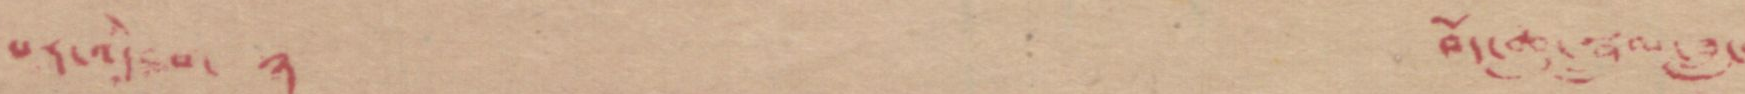པར་འདེབས་ ༣ བོད་ཆུ་སྦྲུལ་ཟླ་
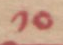༡༠
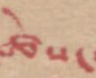ཚེས་
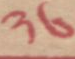༢༦
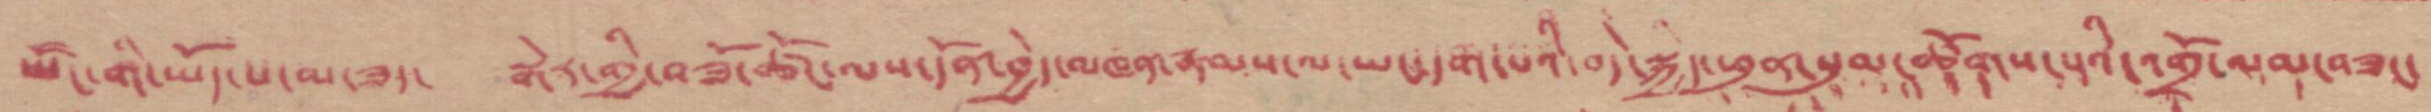ཡོང་གི་ཡོད་པ་མ་ཟད་ སྒེར་གྱི་བཟོ་ཚོང་ལས་དོན་བྱེད་མཁན་རྣམས་ལ་ཡང་དག་པའི་བདེ་སྐྱིད་ཕུན་སུམ་ཚོགས་པའི་འགྲོ་ལམ་བཟང་
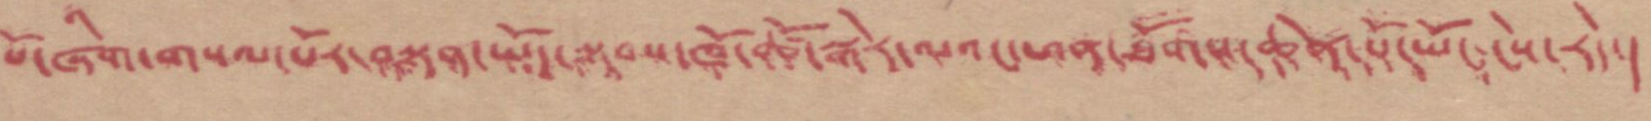པོ་ཞིག་གསལ་པོར་བསྟན་ཡོད་སྟབས་ཁོ་ཚོ་སྒེར་ལའང་ཕན་ཐོགས་ཆེན་པོ་ཡོང་ངེས་རེད།
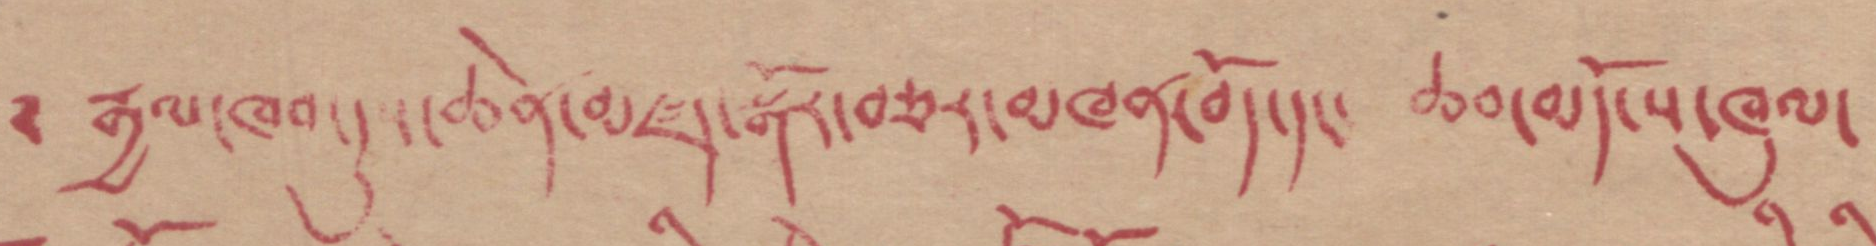༄ རྒྱལ་ཁབ་དུ་ཆེན་མཛད་སྒོར་བཅར་མཁན་བོད་དང་ ཆབ་མདོ་ས་ཁུལ་
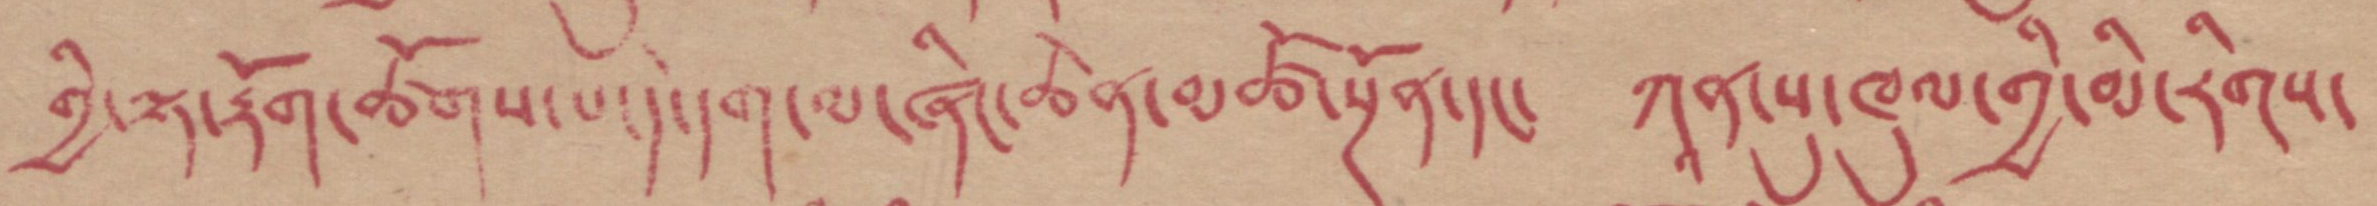གྱི་ལྟ་རྟོག་ཚོགས་པ་དེ་དག་ལ་ཞིང་ཆེན་མཚོ་སྔོན་དང་ ཀཱན་སུ་ཁུལ་གྱི་མི་རིགས་
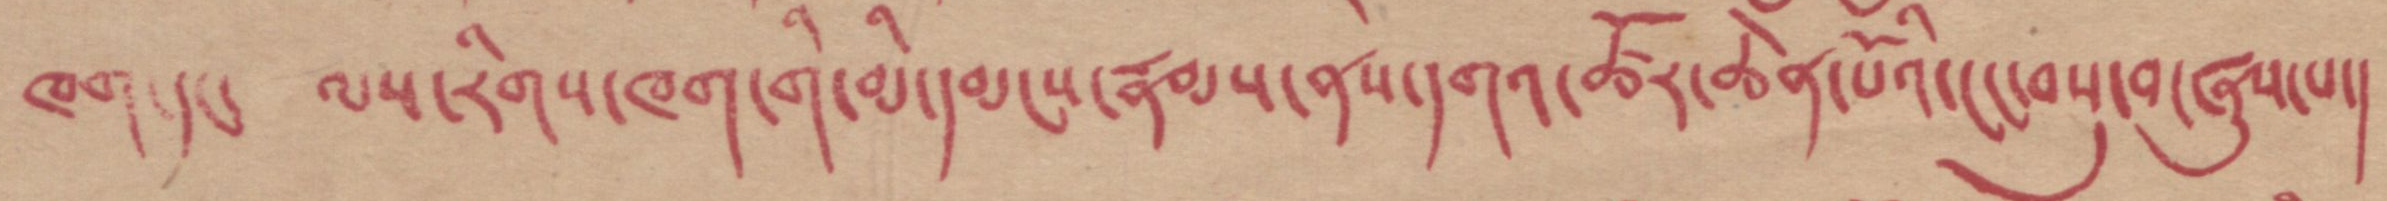ཁག་དང་ ལས་རིགས་ཁག་གི་མི་དམངས་རྣམས་ནས་དགའ་ཚོར་ཆེན་པོའི་ངང་བསུ་བ་ཞུས་པ།
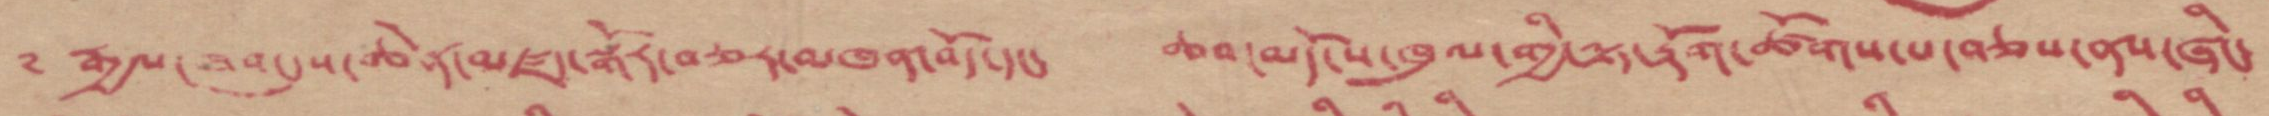༄ རྒྱལ་ཁབ་དུས་ཆེན་མཛད་སྒོར་བཅར་མཁན་བོད་དང་ ཆབ་མདོ་ས་ཁུལ་གྱི་ལྟ་རྟོག་ཚོགས་པ་བཅས་ནས་ཞིང་
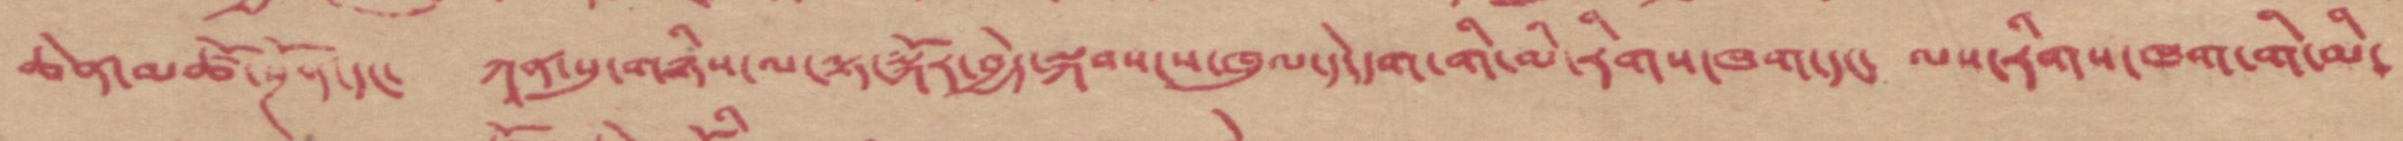ཆེན་མཚོ་སྔོན་དང་ ཀཱན་སུ་གཉིས་ལ་ལྟ་སྐོར་བྱེད་སྐབས་ས་ཁུལ་དེ་དག་གི་མི་རིགས་ཁག་དང་ ལས་རིགས་ཁག་གི་མི་
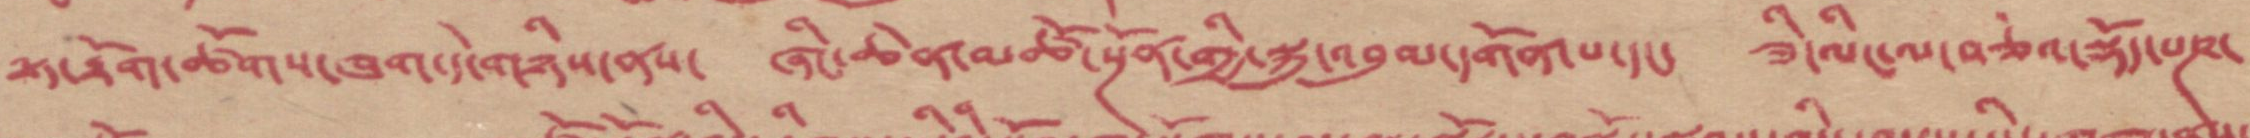ལྟ་རྟོག་ཚོགས་ཁག་དེ་གཉིས་ནས་ ཞིང་ཆེན་མཚོ་སྔོན་གྱི་སྐུ་འབུམ་དགོན་པ་དང་ ཟི་ལིང་ལ་བཅས་སྡོད་པཎ་
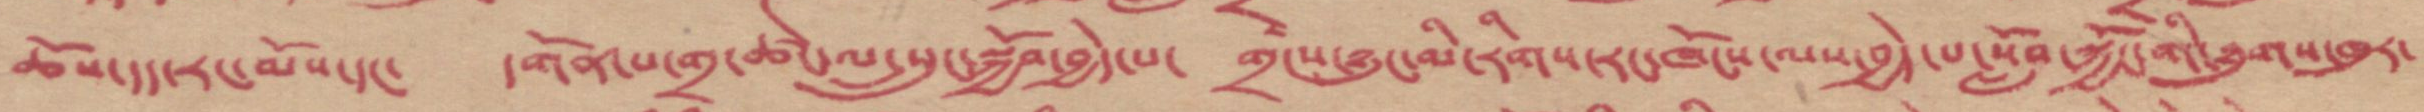ཆོས་དད་རང་མོས་དང་ དགོན་པ་གྲྭ་ཚང་ལ་སྲུང་སྐྱོབ་བྱེད་པ་ གྲངས་ཉུང་མི་རིགས་རང་ཁོངས་ལས་བྱེད་པ་སློབ་སྐྱོང་གི་ཐུགས་ཁུར་
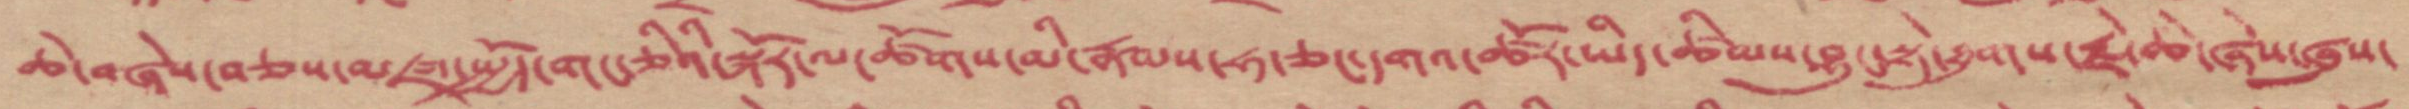ཆེ་བཞེས་བཅས་མཛད་སྤྱོད་གང་ཅིའི་སྐོར་ལ་ཚོགས་མི་རྣམས་ཧ་ཅང་དགའ་ཚོར་ཡིད་ཚིམས་བྱུང་སྟེ་ཐུགས་རྗེ་ཆེ་ཞེས་ཞུས་
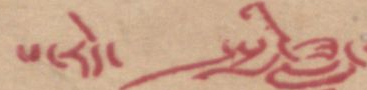པ་རེད་ སྤྱི་ཟླ་
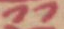༡༡
